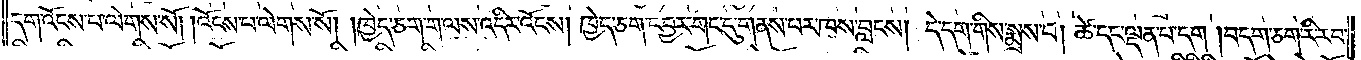དག་འོངས་པ་ལེགས་སོ། །འོངས་པ་ལེགས་སོ། །ཁྱེད་ཅག་ག་ལས་འདིར་འོངས། ཁྱེད་ཅག་དབྱར་གང་དུ་གནས་པར་ཁས་བླངས། དེ་དག་གིས་སྨྲས་པ། ཚེ་དང་ལྡན་པ་དག །བདག་ཅག་རི་རབ་
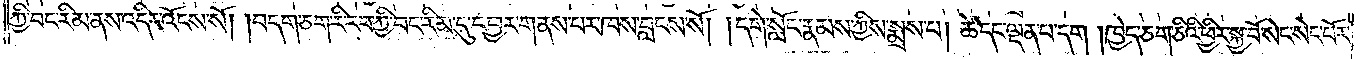ཀྱི་བང་རིམ་ནས་འདིར་འོངས་སོ། །བདག་ཅག་རི་རབ་ཀྱི་བང་རིམ་དུ་དབྱར་གནས་པར་ཁས་བླངས་སོ། །དགེ་སློང་རྣམས་ཀྱིས་སྨྲས་པ། ཚེ་དང་ལྡན་པ་དག །ཁྱེད་ཅག་ཅིའི་ཕྱིར་སྐྱ་བོ་སེང་སེང་པོར་
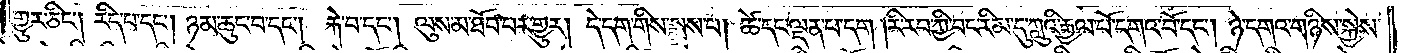གྱུར་ཅིང༌། རིད་པ་དང༌། ཉམ་ཆུང་བ་དང༌། རྐེ་པ་དང༌། ལུས་མ་ཐོབ་པར་གྱུར། དེ་དག་གིས་སྨྲས་པ། ཚེ་དང་ལྡན་པ་དག །རི་རབ་ཀྱི་བང་རིམ་དུ་ཀླུའི་རྒྱལ་པོ་དགའ་བོ་དང༌། ཉེ་དགའ་གཉིས་སྐྱེས་
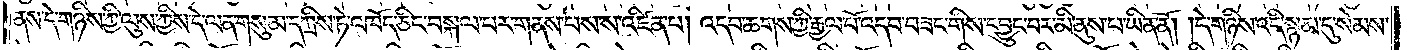ནས་དེ་གཉིས་ཀྱི་ལུས་ཀྱིས་དེ་ལན་གསུམ་དཀྲིས་ཏེ་འཁོད་ཅིང་བསྐལ་བར་གནས་པས་ས་འཛིན་པ། འདབ་ཆགས་ཀྱི་རྒྱལ་པོ་འདབ་བཟང་གིས་དབྱུང་བར་མི་ནུས་པ་ཡིན་ནོ། །དེ་གཉིས་འདི་སྙམ་དུ་སེམས་
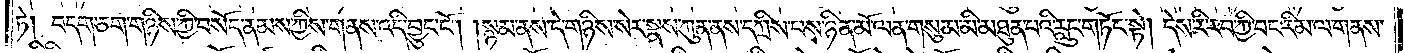ཏེ། བདག་ཅག་གཉིས་ཀྱི་བསོད་ནམས་ཀྱིས་གནས་འདི་བྱུང་ངོ༌། །སྙམ་ནས་དེ་གཉིས་སེར་སྣས་ཀུན་ནས་དཀྲིས་པས་ཉིན་མོ་ལན་གསུམ་མི་མཐུན་པའི་རླུང་གཏོང་སྟེ། དེས་རི་རབ་ཀྱི་བང་རིམ་ལ་གནས་
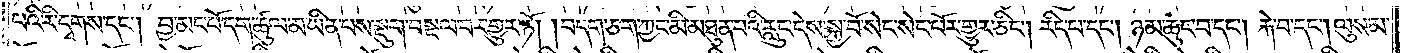པའི་རི་དྭགས་དང༌། བྱ་མང་པོ་དག་ཚུལ་མ་ཡིན་པས་སྡུག་བསྔལ་བར་གྱུར་ཏོ། །བདག་ཅག་ཀྱང་མི་མཐུན་པའི་རླུང་དེས་སྐྱ་བོ་སེང་སེང་པོར་གྱུར་ཅིང༌། རིད་པ་དང༌། ཉམ་ཆུང་བ་དང༌། རྐེ་པ་དང༌། ལུས་མ་
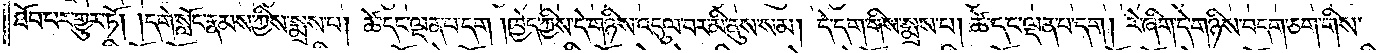ཐོབ་པར་གྱུར་ཏོ། །དགེ་སློང་རྣམས་ཀྱིས་སྨྲས་པ། ཚེ་དང་ལྡན་པ་དག །ཁྱེད་ཀྱིས་དེ་གཉིས་འདུལ་བར་མི་ནུས་སམ། དེ་དག་གིས་སྨྲས་པ། ཚེ་དང་ལྡན་པ་དག །རེ་ཞིག་དེ་གཉིས་བདག་ཅག་གིས་
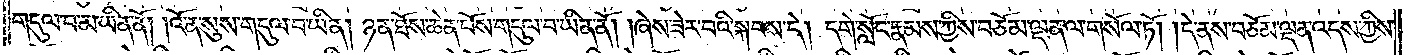གདུལ་བ་མ་ཡིན་ནོ། །འོ་ན་སུས་གདུལ་བ་ཡིན། ཉན་ཐོས་ཆེན་པོས་གདུལ་བ་ཡིན་ནོ། །ཞེས་ཟེར་བའི་སྐབས་དེ། དགེ་སློང་རྣམས་ཀྱིས་བཅོམ་ལྡན་ལ་གསོལ་ཏོ། །དེ་ནས་བཅོམ་ལྡན་འདས་ཀྱིས་
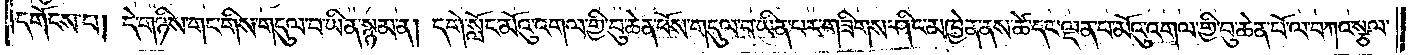དགོངས་པ། དེ་གཉིས་གང་གིས་གདུལ་བ་ཡིན་སྙམ་ན། དགེ་སློང་མོའུ་འགལ་གྱི་བུ་ཆེན་པོས་གདུལ་བ་ཡིན་པར་གཟིགས་ཤིང་མཁྱེན་ནས་ཚེ་དང་ལྡན་པ་མོའུ་འགལ་གྱི་བུ་ཆེན་པོ་ལ་བཀའ་སྩལ་
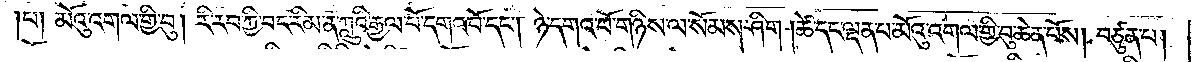།པ། མོའུ་འགལ་གྱི་བུ། རི་རབ་ཀྱི་བང་རིམ་ན་ཀླུའི་རྒྱལ་པོ་དགའ་བོ་དང༌། ཉེ་དགའ་བོ་གཉིས་ལ་སོམས་ཤིག །ཚེ་དང་ལྡན་པ་མོའུ་འགལ་གྱི་བུ་ཆེན་པོས། བཙུན་པ།
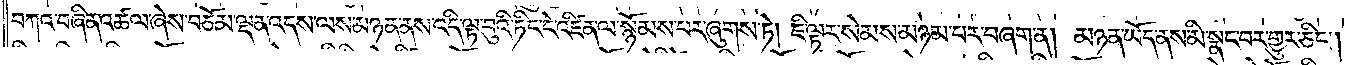བཀའ་བཞིན་འཚལ་ཞེས་བཅོམ་ལྡན་འདས་ལས་མཉན་ནས་འདི་ལྟ་བུའི་ཏིང་ངེ་འཛིན་ལ་སྙོམས་པར་ཞུགས་ཏེ། ཇི་ལྟར་སེམས་མཉམ་པར་བཞག་ན། མཉན་ཡོད་ནས་མི་སྣང་བར་གྱུར་ཅིང༌།
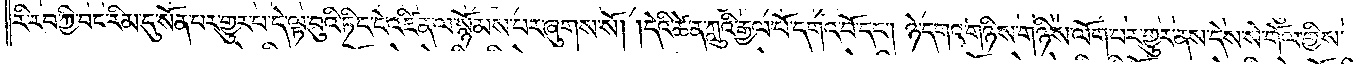རི་རབ་ཀྱི་བང་རིམ་དུ་སོན་པར་གྱུར་པ་དེ་ལྟ་བུའི་ཏིང་ངེ་འཛིན་ལ་སྙོམས་པར་ཞུགས་སོ། །དེའི་ཚེ་ན་ཀླུའི་རྒྱལ་པོ་དགའ་བོ་དང༌། ཉེ་དགའ་གཉིས་གཉིས་ལོག་པར་གྱུར་ནས་དེས་སེ་གོལ་གྱིས་
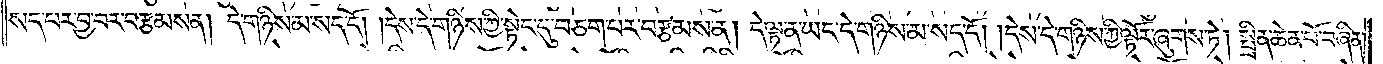སད་པར་བྱ་བར་བརྩམས་ན། དེ་གཉིས་མ་སད་དོ། །དེས་དེ་གཉིས་ཀྱི་སྟེང་དུ་བཅག་པར་བརྩམས་ན། དེ་ལྟ་ན་ཡང་དེ་གཉིས་མ་སད་དོ། །དེས་དེ་གཉིས་ཀྱི་ལྟོར་ཞུགས་ཏེ། སྤྲིན་ཆེན་པོ་བཞིན་
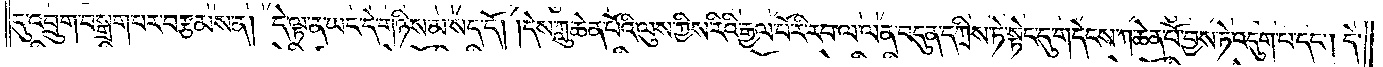དུ་འབྲུག་བསྒྲག་པར་བརྩམས་ན། དེ་ལྟ་ན་ཡང་དེ་གཉིས་མ་སད་དོ། །དེས་ཀླུ་ཆེན་པོའི་ལུས་ཀྱིས་རིའི་རྒྱལ་པོ་རི་རབ་ལ་ལན་བདུན་དཀྲིས་ཏེ་སྟེང་དུ་གདེངས་ཀ་ཆེན་པོ་བྱས་ཏེ་འདུག་པ་དང༌། དེ་
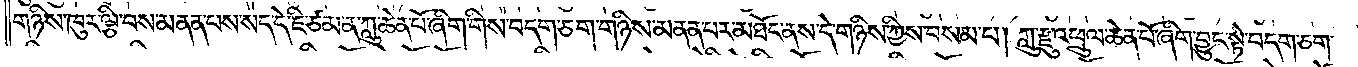གཉིས་ཁུར་ལྕི་བས་མནན་པས་སད་དེ་ཇི་ཙམ་ན་ཀླུ་ཆེན་པོ་ཞིག་གིས་བདག་ཅག་གཉིས་མནན་པར་མཐོང་ནས་དེ་གཉིས་ཀྱིས་བསམ་པ། ཀླུ་རྫུ་འཕྲུལ་ཆེན་པོ་ཞིག་བྱུང་སྟེ་བདག་ཅག་
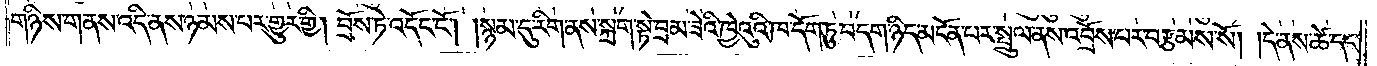གཉིས་གནས་འདི་ནས་ཉམས་པར་གྱུར་གྱི། བྲོས་ཏེ་འདོང་ངོ༌། །སྙམ་དུ་རིག་ནས་སྐྲག་སྟེ་བྲམ་ཟེའི་ཁྱེའུའི་ཁ་དོག་ཏུ་བདག་ཉིད་མངོན་པར་སྤྲུལ་ནས་འབྲོས་པར་བརྩམས་སོ། །དེ་ནས་ཚེ་དང་
